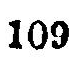109
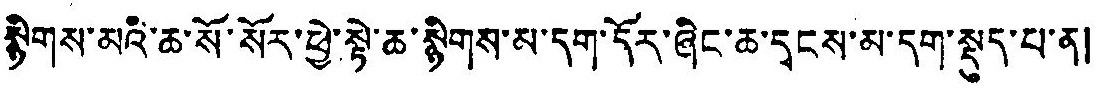སྙིགས་མའི་ཆ་སོ་སོར་ཕྱེ་སྟེ་ཆ་སྙིགས་མ་དག་དོར་ཞིང་ཆ་དྭངས་མ་དག་སྡུད་པ་ན།
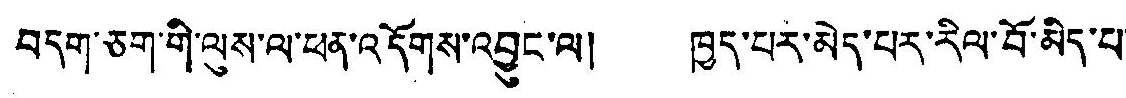བདག་ཅག་གི་ལུས་ལ་ཕན་འདོགས་འབྱུང་ལ། ཁྱད་པར་མེད་པར་རིལ་བོ་མིད་པ་
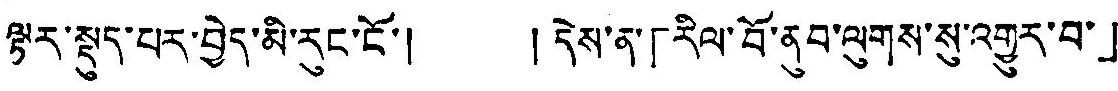ལྟར་སྡུད་པར་བྱེད་མི་རུང་ངོ་། །དེས་ན་「རིལ་བོ་ནུབ་ལུགས་སུ་འགྱུར་བ་」
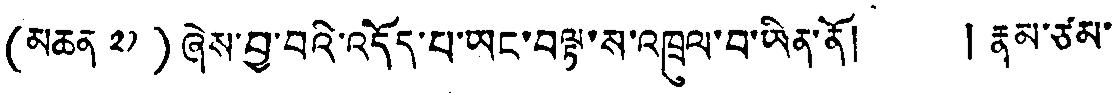(མཆན ༢༡)ཞེས་བྱ་བའི་འདོད་པ་ཡང་བལྟ་ས་འཁྲུལ་བ་ཡིན་ནོ། །རྣམ་ཙམ་
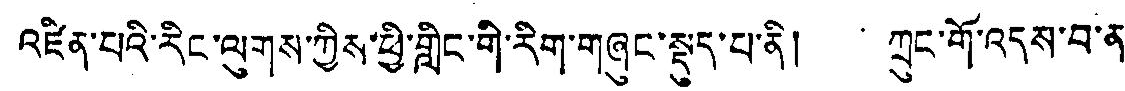འཛིན་པའི་རིང་ལུགས་ཀྱིས་ཕྱི་གླིང་གི་རིག་གཞུང་སྡུད་པ་ནི། ཀྲུང་གོ་འདས་བ་ན་
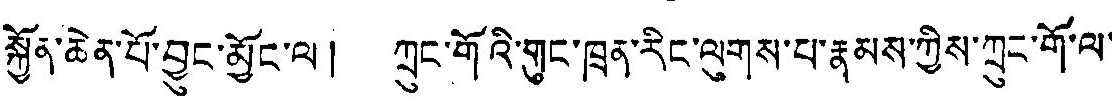སྐྱོན་ཆེན་པོ་བྱུང་མྱོང་ལ། ཀྲུང་གོའི་གུང་ཁྲན་རིང་ལུགས་པ་རྣམས་ཀྱིས་ཀྲུང་གོ་ལ་
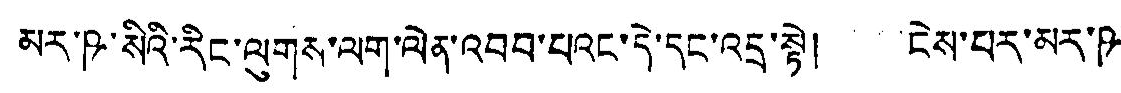མར་ཥ་སིའི་རིང་ལུགས་ལག་ལེན་འབབ་པའང་དེ་དང་འདྲ་སྟེ། ངེས་པར་མར་ཥ
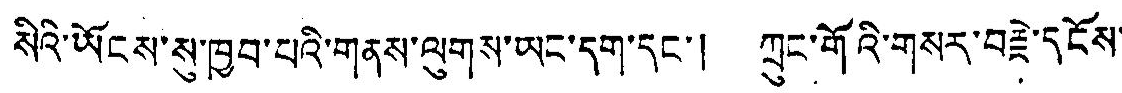སིའི་ཡོངས་སུ་ཁྱབ་པའི་གནས་ལུགས་ཡང་དག་དང་། ཀྲུང་གོའི་གསར་བརྗེ་དངོས་
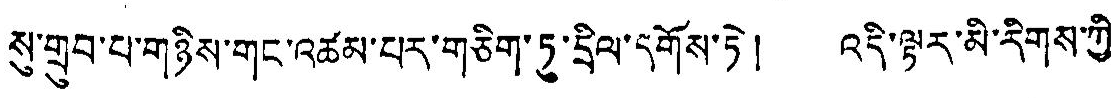སུ་གྲུབ་པ་གཉིས་གང་འཚམ་པར་གཅིག་ཏུ་དྲིལ་དགོས་ཏེ། འདི་ལྟར་མི་རིགས་ཀྱི་
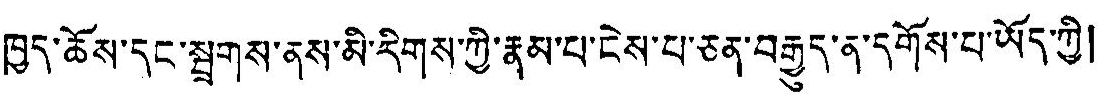ཁྱད་ཆོས་དང་སྦྲགས་ནས་མི་རིགས་ཀྱི་རྣམ་པ་ངེས་པ་ཅན་བརྒྱུད་ན་དགོས་པ་ཡོད་ཀྱི།
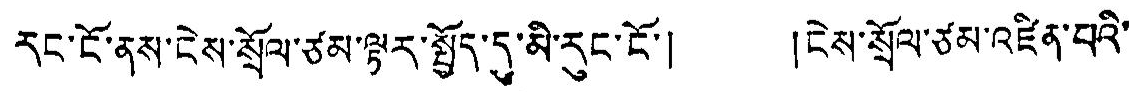རང་ངོ་ནས་ངེས་སྲོལ་ཙམ་ལྟར་སྤྱོད་དུ་མི་རུང་ངོ་། །ངེས་སྲོལ་ཙམ་འཛིན་བའི་
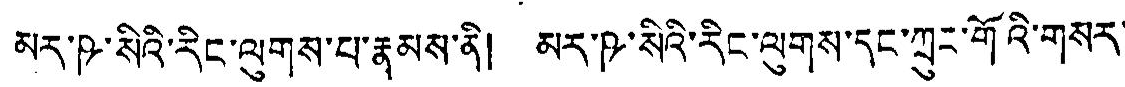མར་ཥ་སིའི་རིང་ལུགས་པ་རྣམས་ནི། མར་ཥ་སིའི་རིང་ལུགས་དང་ཀྲུང་གོའི་གསར་
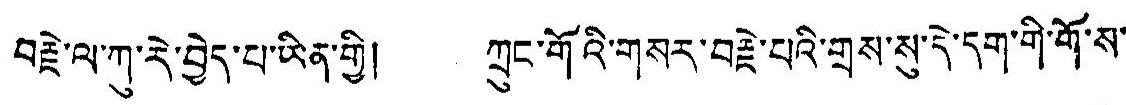བརྗེ་ལ་ཀུ་རེ་བྱེད་པ་ཡིན་གྱི། ཀྲུང་གོའི་གསར་བརྗེ་པའི་གྲས་སུ་དེ་དག་གི་གོ་ས་
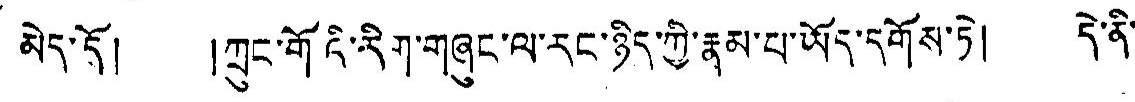མེད་དོ། །ཀྲུང་གོའི་རིག་གཞུང་ལ་རང་ཉིད་ཀྱི་རྣམ་པ་ཡོད་དགོས་ཏེ། དེ་ནི་
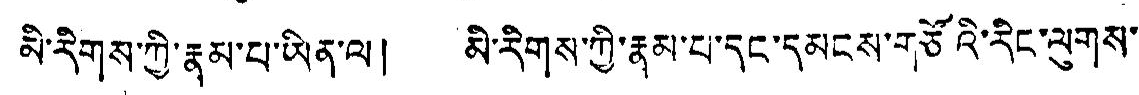མི་རིགས་ཀྱི་རྣམ་པ་ཡིན་ལ། མི་རིགས་ཀྱི་རྣམ་པ་དང་དམངས་གཙོའི་རིང་ལུགས་
